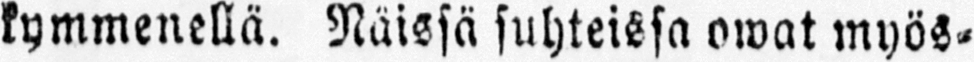kymmenellä. Näissä suhteissa owat myös-
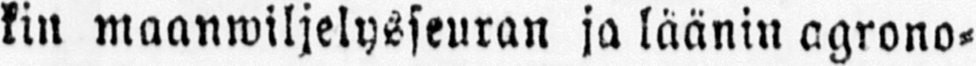kin maanwiljelysseuran ja läänin agrono-
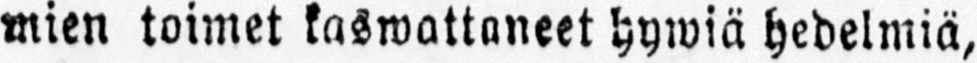mien toimet kaswattaneet hywiä hedelmiä,
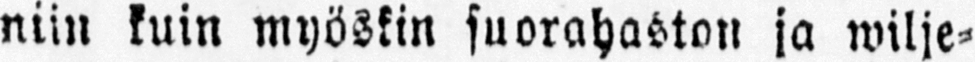niin kuin myöskin suorahaston ja wilje-
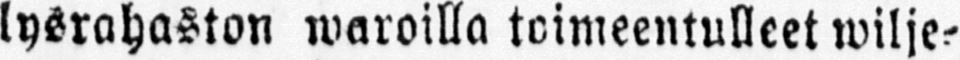lysrahaston waroillä toimeentulleet wilje-
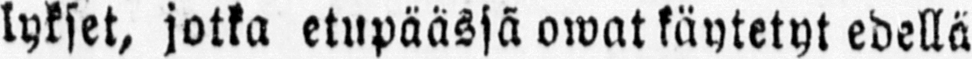lykset, jotka etupäässä owat käytetyt edellä
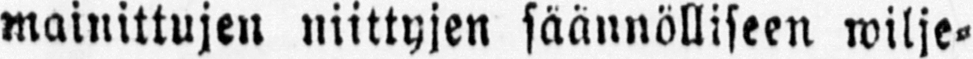mainittujen niittyjen säännölliseen wilje-
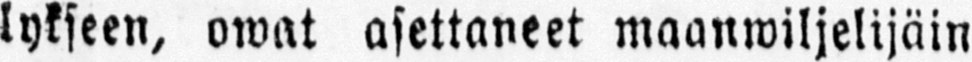lykseen, owat asettaneet maanwiljelijäin
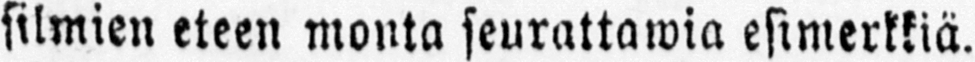silmien eteen monta seurattawia esimerkkiä.
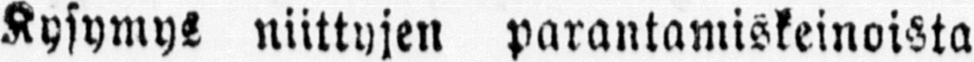Kysymys niittyjen parantamiskeinoista
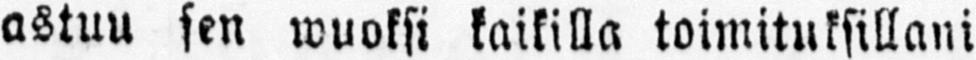astuu sen wuoksi kaikilla toimituksillani
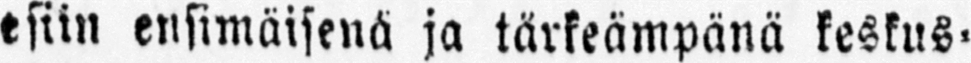esiin ensimäisenä ja tärkeämpänä keskus-
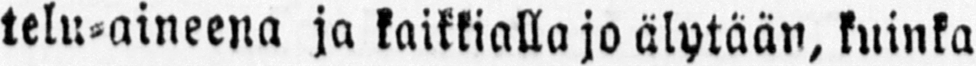telu-aineena ja kaikkialla jo älytään, kuinka
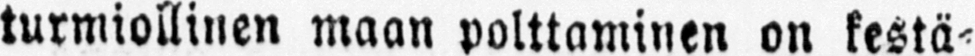turmiollinen maan polttaminen on kestä-
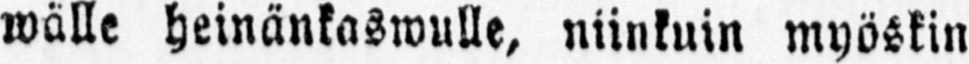walle heinänkaswulle, niinkuin myöskin
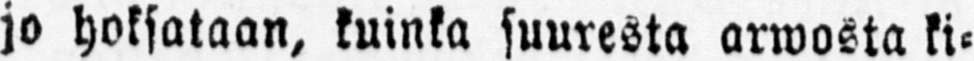jo hoksataan, kuinka suuresta arwosta ki-
